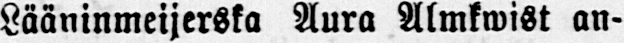Lääninmeijerska Aura Almkwist an-
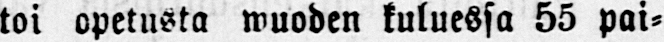toi opetusta wuoden kuluessa 55 pai-
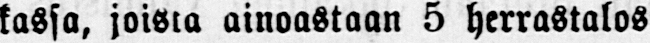kassa, joista ainoastaan 5 herrastalos-
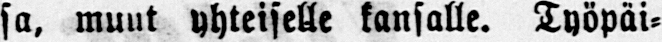sa, muut yhteiselle kansalle. Työpäi-
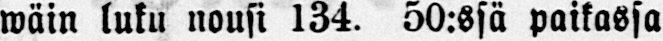wäin luku nousi 134. 50:ssä paikassa
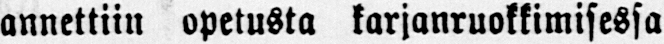annettiin opetusta karjanruokkimisessa
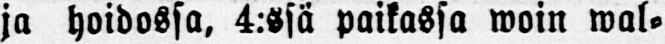ja hoidossa, 4:ssä paikassa woin wal-
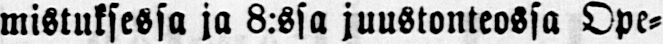mistuksessa ja 8:ssa juustonteossa Ope-
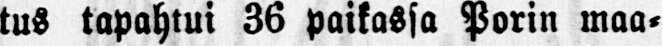tus tapahtui 36 paikassa Porin maa-
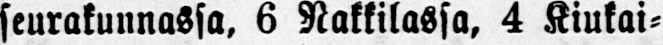seurakunnassa, 6 Nakkilassa, 4 Kiukai-
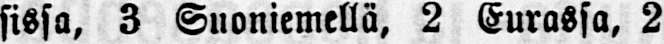sissa, 3 Suoniemellä, 2 Eurassa, 2
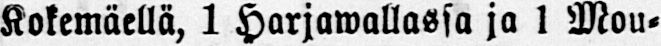Kokemäellä, 1 Harjawallassa ja l Mou-
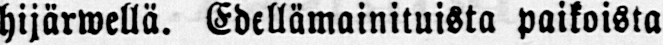hijärwellä. Edellämainituista paikoista
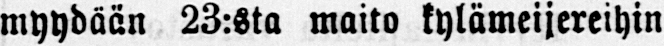myydään 23:sta maito kylämeijereihin
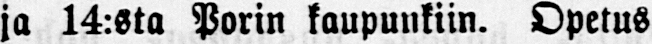ja 14:sta Porin kaupunkiin. Opetus-
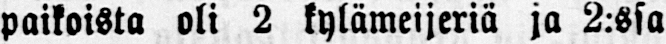paikoista oli 2 kylämeijeriä ja 2:ssa
